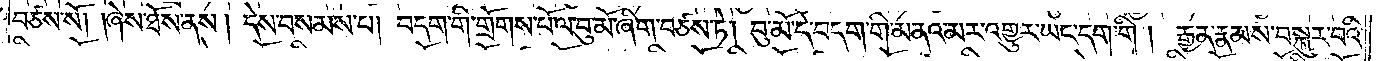བཙས་སོ། །ཞེས་ཐོས་ནས། དེས་བསམས་པ། བདག་གི་གྲོགས་པོ་ལ་བུ་མོ་ཞིག་བཙས་ཏེ། བུ་མོ་དེ་བདག་གི་མནའ་མར་འགྱུར་ཡང་དག་གི། རྒྱན་རྣམས་བསྐུར་བའི་
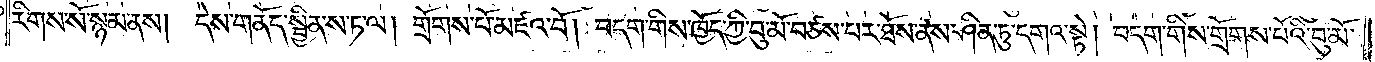རིགས་སོ་སྙམ་ནས། དེས་གནོད་སྦྱིན་ས་ཏ་ལ། གྲོགས་པོ་མཛའ་བོ། བདག་གིས་ཁྱོད་ཀྱི་བུ་མོ་བཙས་པར་ཐོས་ནས་ཤིན་ཏུ་དགའ་སྟེ། བདག་གིས་གྲོགས་པོའི་བུ་མོ་
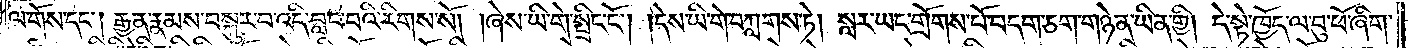ལ་གོས་དང༌། རྒྱན་རྣམས་བསྐུར་བ་འདི་བླང་བའི་རིགས་སོ། །ཞེས་ཡི་གེ་སྤྲིང་ངོ༌། །དེས་ཡི་གེ་བཀླགས་ཏེ། སླར་ཡང་གྲོགས་པོ་བདག་ཅག་གཉེན་ཡིན་གྱི། དེ་སྟེ་ཁྱོད་ལ་བུ་ཕོ་ཞིག་
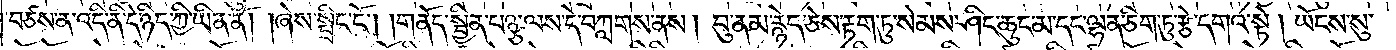བཙས་ན་འདི་ནི་དེ་ཉིད་ཀྱི་ཡིན་ནོ། །ཞེས་སྤྲིང་ངོ༌། །གནོད་སྦྱིན་པཉྩ་ལས་དེ་བཀླགས་ནས། བུ་ནམ་རྙེད་ཅེས་རྟག་ཏུ་སེམས་ཤིང་ཆུང་མ་དང་ལྷན་ཅིག་ཏུ་རྩེ་དགའ་སྟེ། ཡོངས་སུ་
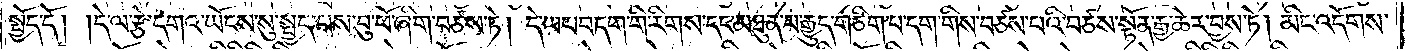སྤྱོད་དོ། །དེ་ལ་རྩེ་དགའ་ཡོངས་སུ་སྤྱད་པས་བུ་ཕོ་ཞིག་བཙས་ཏེ། དེ་ཡང་བདག་གི་རིགས་དང་མཐུན་པ་རྒྱུད་གཅིག་པ་དག་གིས་བཙས་པའི་བཙས་སྟོན་རྒྱ་ཆེར་བྱས་ཏེ། མིང་འདོགས་
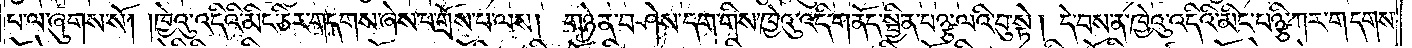པ་ལ་ཞུགས་སོ། །ཁྱེའུ་འདིའི་མིང་ཅིར་གདགས་ཞེས་པ་གྲོས་པ་ལས། གཉེན་བཤེས་དག་གིས་ཁྱེའུ་འདི་གནོད་སྦྱིན་པཉྩ་ལའི་བུ་སྟེ། དེ་བས་ན་ཁྱེའུ་འདིའི་མིང་པཉྩི་ཀར་གདགས་
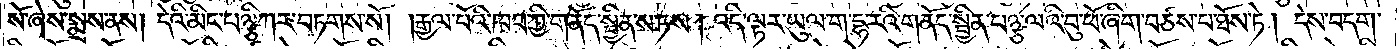སོ་ཞེས་སྨྲས་ནས། དེའི་མིང་པཉྩི་ཀར་བཏགས་སོ། །རྒྱལ་པོའི་ཁབ་ཀྱི་གནོད་སྦྱིན་ས་ཏས། འདི་ལྟར་ཡུལ་ག་དྷ་རའི་གནོད་སྦྱིན་པཉྩ་ལའི་བུ་ཕོ་ཞིག་བཙས་པ་ཐོས་ཏེ། དེས་བདག་
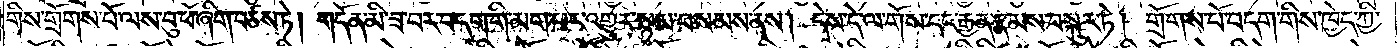གིས་གྲོགས་པོ་ལས་བུ་ཕོ་ཞིག་བཙས་ཏེ། གདོན་མི་ཟ་བར་བདག་གི་མག་པར་འགྱུར་སྙམ་བསམས་ནས། དེས་དེ་ལ་གོས་དང་རྒྱན་རྣམས་བསྐུར་ཏེ། གྲོགས་པོ་བདག་གིས་ཁྱེད་ཀྱི་
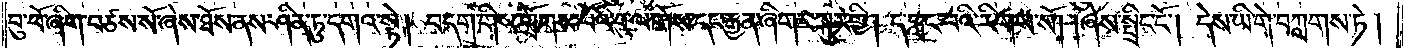བུ་ཕོ་ཞིག་བཙས་སོ་ཞེས་ཐོས་ནས་ཤིན་ཏུ་དགའ་སྟེ། བདག་གིས་གྲོགས་པོའི་བུ་ལ་གོས་དང་རྒྱན་ཞིག་བསྐུར་གྱི། ད་བླང་བའི་རིགས་སོ། །ཞེས་སྤྲིང་ངོ༌། །དེས་ཡི་གེ་བཀླགས་ཏེ།
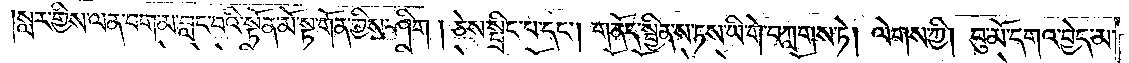སླར་གྱིས་ལན་བག་མ་བླང་བའི་སྟོན་མོ་སྟ་གོན་གྱིས་ཤིག །ཅེས་སྤྲིང་པ་དང༌། གནོད་སྦྱིན་ས་ཏས་ཡི་གེ་བཀླགས་ཏེ། ལེགས་ཀྱི། བུ་མོ་དགའ་བྱེད་མ་
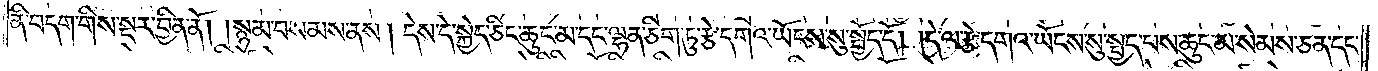ནི་བདག་གིས་སྔར་བྱིན་ནོ། །སྙམ་བསམས་ནས། དེས་དེ་སྐྱེད་ཅིང་ཆུང་མ་དང་ལྷན་ཅིག་ཏུ་རྩེ་དགའ་ཡོངས་སུ་སྤྱོད་དོ། །དེ་ལ་རྩེ་དགའ་ཡོངས་སུ་སྤྱད་པས་ཆུང་མ་སེམས་ཅན་དང་
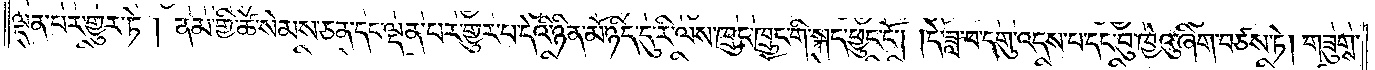ལྡན་པར་གྱུར་ཏེ། ནམ་གྱི་ཚེ་སེམས་ཅན་དང་ལྡན་པར་གྱུར་པ་དེའི་ཉིན་མོ་ཉིད་དུ་རི་ལས་ཁྲུང་ཁྲུང་གི་སྐད་ཕྱུང་ངོ༌། །དེ་ཟླ་བ་དགུ་འདས་པ་དང་བུ་ཁྱེའུ་ཞིག་བཙས་ཏེ། གཟུགས་
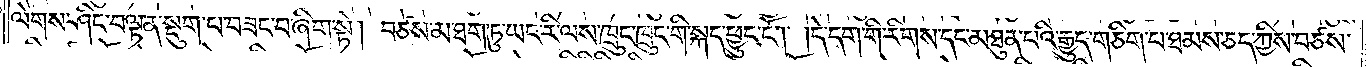ལེགས་ཤིང་བལྟ་ན་སྡུག་པ་བཟང་བ་ཞིག་སྟེ། བཙས་མ་ཐག་ཏུ་ཡང་རི་ལས་ཁྲུང་ཁྲུང་གི་སྐད་ཕྱུང་ངོ༌། །དེ་དག་གི་རིགས་དང་མཐུན་པའི་རྒྱུད་གཅིག་པ་ཐམས་ཅད་ཀྱིས་བཙས་
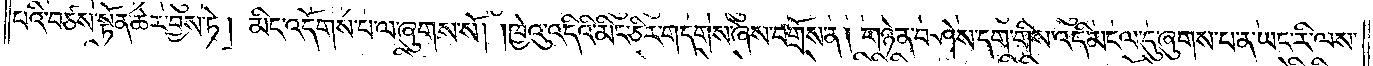པའི་བཙས་སྟོན་ཆེར་བྱས་ཏེ། མིང་འདོགས་པ་ལ་ཞུགས་སོ། །ཁྱེའུ་འདིའི་མིང་ཅིར་གདགས་ཞེས་བགྲོས་ན། གཉེན་བཤེས་དག་གིས་འདི་མངལ་དུ་ཞུགས་པ་ན་ཡང་རི་ལས་
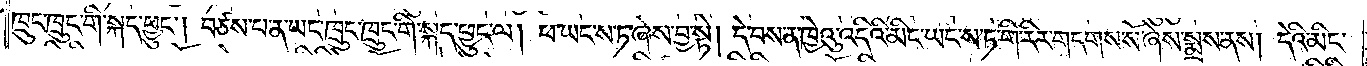ཁྲུང་ཁྲུང་གི་སྐད་ཕྱུང༌། བཙས་པ་ན་ཡང་ཁྲུང་ཁྲུང་གི་སྐད་ཕྱུང་ལ། ཕ་ཡང་ས་ཏ་ཞེས་བྱ་སྟེ། དེ་བས་ན་ཁྱེའུ་འདིའི་མིང་ཡང་ས་ཏ་གི་རིར་གདགས་སོ་ཞེས་སྨྲས་ནས། དེའི་མིང་
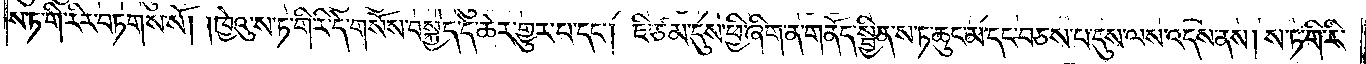ས་ཏ་གི་རིར་བཏགས་སོ། །ཁྱེའུ་ས་ཏ་གི་རི་དེ་གསོས་བསྐྱེད་དེ་ཆེར་གྱུར་པ་དང༌། ཇི་ཙམ་དུས་ཕྱི་ཞིག་ན་གནོད་སྦྱིན་ས་ཏ་ཆུང་མ་དང་བཅས་པ་དུས་ལས་འདས་ནས། ས་ཏ་གི་རི་
